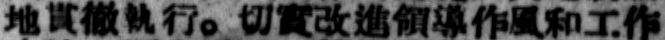地貫徹執行。切實改進領導作風和工作
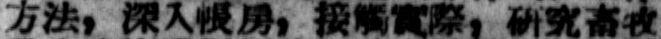方法，深入帳房，接觸實際，研究畜牧
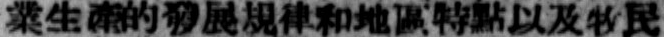業生產的發展規律和地區特點以及牧民
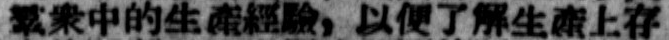羣衆中的生產經驗，以便了解生產上存
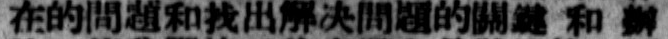在的問題和找出解決問題的關鍵 和 辦
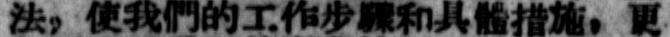法，使我們的工作步驟和具體措施，更
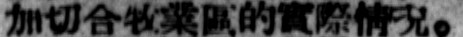加切合牧業區的實際情況。
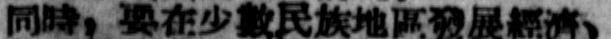同時，要在少數民族地區發展經濟、
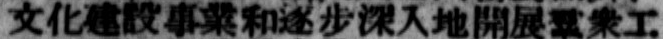文化建設事業和逐步深入地開展羣衆工
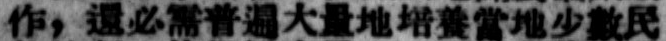作，還必須普遍大量地培養當地少數民
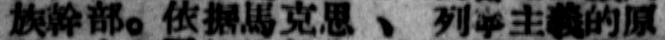族幹部。依據馬克思 、 列寧主義的原
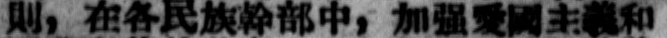則，在各民族幹部中，加強愛國主義和
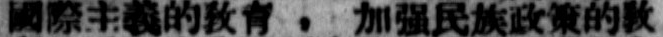國際主義的敎育 ， 加強民族政策的敎
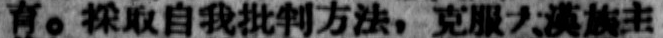育。採取自我批判方法，克服大漢族主
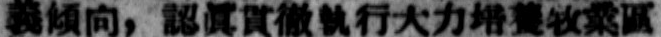義傾向，認眞貫徹執行大力培養牧業區
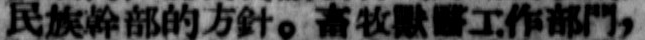民族幹部的方針。畜牧獸醫工作部門，
